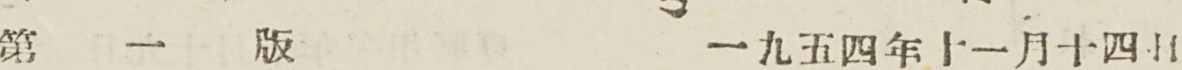第 一 版 一九五四年十一月十四日
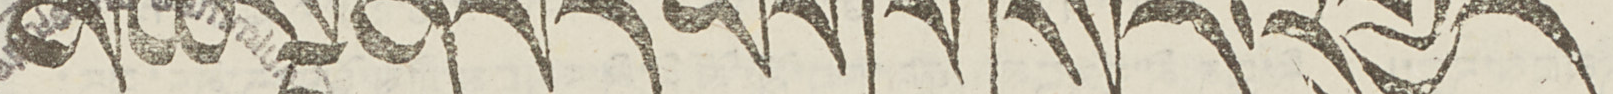མཚོ་སྔོན་བོད་ཡིག་གསར་འགྱུར་
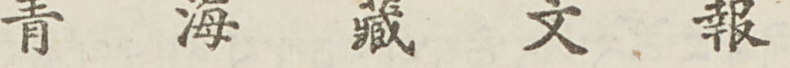青 海 藏 文 報
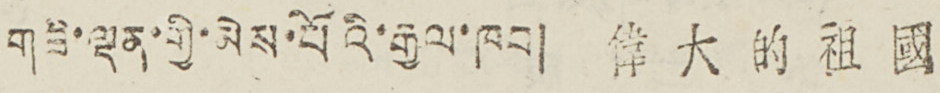གཟི་ལྡན་གྱི་མེས་པོའི་རྒྱལ་ཁབ། 偉 大 的 祖 國
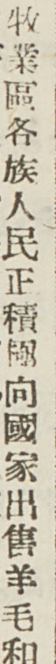牧業區各族人民正積極向國家出售羊毛和
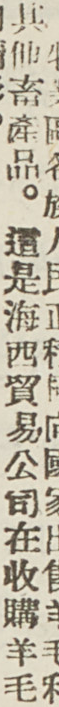其他畜產品。這是海西貿易公司在收購羊毛
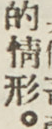的情形。
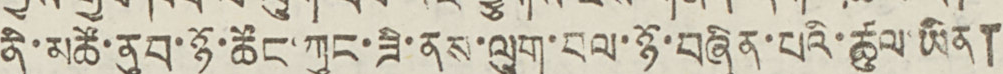ནི་མཚོ་ནུབ་ཉོ་ཚོང་ཀུང་ཟི་ནས་ལུག་བལ་ཉོ་བཞིན་པའི་ཚུལ་ཡིན།
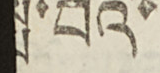སྤོ་བའི་
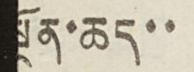སྔོན་ཆད་་
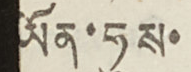ཡོན་ཧུས་
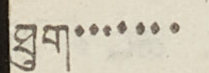ཐུག་་་་་་་
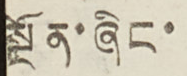སྔོན་ཞིང་
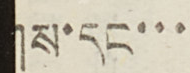གས་དང་་་
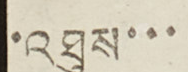་འཐུས་་་
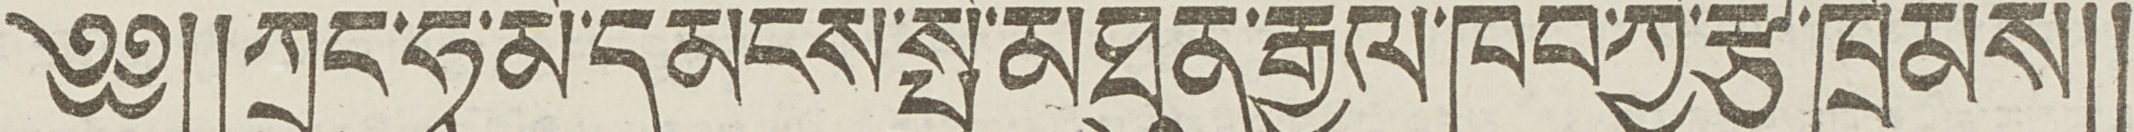༄༅༎ཀྲུང་ཧྭ་མི་དམངས་སྤྱི་མཐུན་རྒྱལ་ཁབ་ཀྱི་རྩ་ཁྲིམས༎
